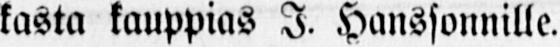kasta kauppias I. Hanssonnille.
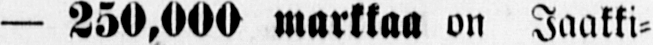— 250,000 markkaa on Jaakki-
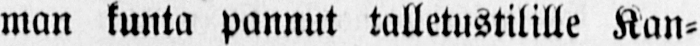man kunta pannut talletustilille Kan-
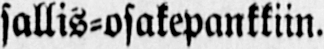sallis-osakepankkiin.
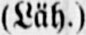(Läh.)
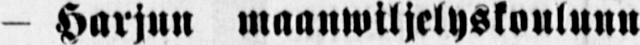- Harjun maanwiljelyskouluun
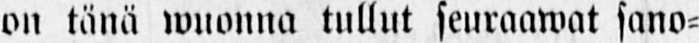on tänä wuonna tullut seuraawat sano-
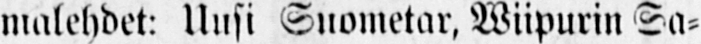malehdet: Uusi Suometar, Wiipurin Sa-
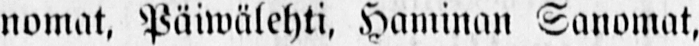nomat, Päiwälehti, Haminan Sanomat,
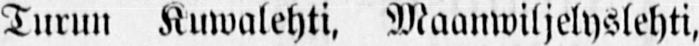Turun Kuwalehti, Maanwiljelyslehti,
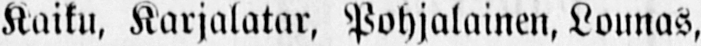Kaiku, Karjalatar, Pohjalainen, Lounas,
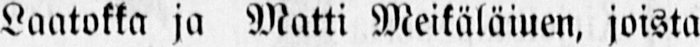Laatokka ja Matti Meikäläiuen, joista
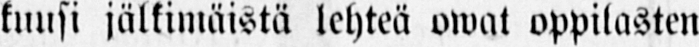kuusi jälkimäistä lehteä owat oppilasten
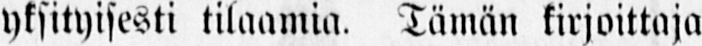yksityisesti tilaamia. Tämän kirjoittaja
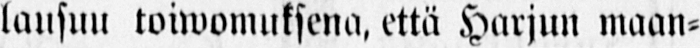lausuu toiwomuksena, että Harjun maan-
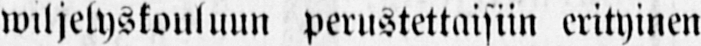wiljelyskouluun perustettaisiin erityinen
